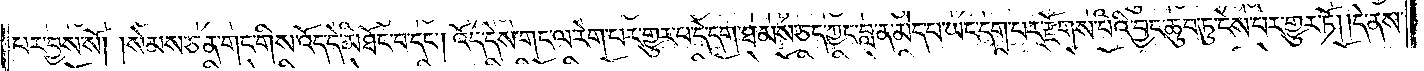པར་བྱས་སོ། །སེམས་ཅན་གང་གིས་འོད་དེ་མཐོང་བ་དང༌། འོད་དེས་གང་ལ་རེག་པར་གྱུར་པ་དེ་དག་ཐམས་ཅད་ཀྱང་བླ་ན་མེད་པ་ཡང་དག་པར་རྫོགས་པའི་བྱང་ཆུབ་ཏུ་ངེས་པར་གྱུར་ཏོ། །དེ་ནས་
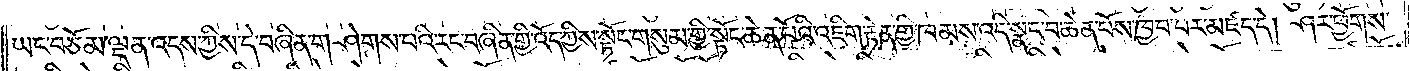ཡང་བཅོམ་ལྡན་འདས་ཀྱིས་དེ་བཞིན་གཤེགས་པའི་རང་བཞིན་གྱི་འོད་ཀྱིས་སྟོང་གསུམ་གྱི་སྟོང་ཆེན་པོའི་འཇིག་རྟེན་གྱི་ཁམས་འདི་སྣང་བ་ཆེན་པོས་ཁྱབ་པར་མཛད་དེ། ཤར་ཕྱོགས་
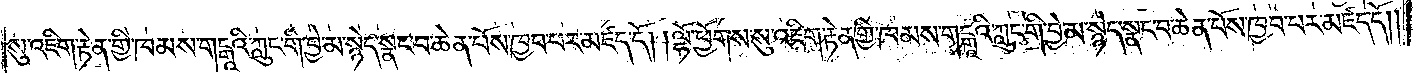སུ་འཇིག་རྟེན་གྱི་ཁམས་གངྒཱའི་ཀླུང་གི་བྱེ་མ་སྙེད་སྣང་བ་ཆེན་པོས་ཁྱབ་པར་མཛད་དོ། །ལྷོ་ཕྱོགས་སུ་འཇིག་རྟེན་གྱི་ཁམས་གངྒཱའི་ཀླུང་གི་བྱེ་མ་སྙེད་སྣང་བ་ཆེན་པོས་ཁྱབ་པར་མཛད་དོ། །
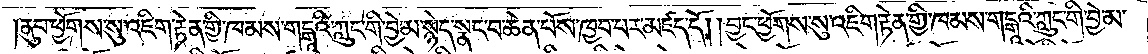ནུབ་ཕྱོགས་སུ་འཇིག་རྟེན་གྱི་ཁམས་གངྒཱའི་ཀླུང་གི་བྱེ་མ་སྙེད་སྣང་བ་ཆེན་པོས་ཁྱབ་པར་མཛད་དོ། །བྱང་ཕྱོགས་སུ་འཇིག་རྟེན་གྱི་ཁམས་གངྒཱའི་ཀླུང་གི་བྱེ་མ་
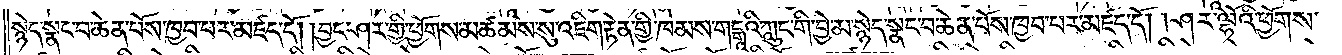སྙེད་སྣང་བ་ཆེན་པོས་ཁྱབ་པར་མཛད་དོ། །བྱང་ཤར་གྱི་ཕྱོགས་མཚམས་སུ་འཇིག་རྟེན་གྱི་ཁམས་གངྒཱའི་ཀླུང་གི་བྱེ་མ་སྙེད་སྣང་བ་ཆེན་པོས་ཁྱབ་པར་མཛད་དོ། །ཤར་ལྷོའི་ཕྱོགས་
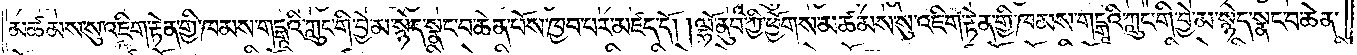མཚམས་སུ་འཇིག་རྟེན་གྱི་ཁམས་གངྒཱའི་ཀླུང་གི་བྱེ་མ་སྙེད་སྣང་བ་ཆེན་པོས་ཁྱབ་པར་མཛད་དོ། །ལྷོ་ནུབ་ཀྱི་ཕྱོགས་མཚམས་སུ་འཇིག་རྟེན་གྱི་ཁམས་གངྒཱའི་ཀླུང་གི་བྱེ་མ་སྙེད་སྣང་བ་ཆེན་
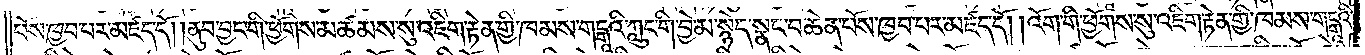པོས་ཁྱབ་པར་མཛད་དོ། །ནུབ་བྱང་གི་ཕྱོགས་མཚམས་སུ་འཇིག་རྟེན་གྱི་ཁམས་གངྒཱའི་ཀླུང་གི་བྱེ་མ་སྙེད་སྣང་བ་ཆེན་པོས་ཁྱབ་པར་མཛད་དོ། །འོག་གི་ཕྱོགས་སུ་འཇིག་རྟེན་གྱི་ཁམས་གངྒཱའི་
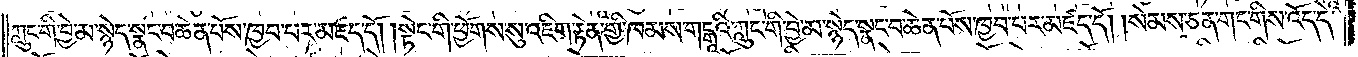ཀླུང་གི་བྱེ་མ་སྙེད་སྣང་བ་ཆེན་པོས་ཁྱབ་པར་མཛད་དོ། །སྟེང་གི་ཕྱོགས་སུ་འཇིག་རྟེན་གྱི་ཁམས་གངྒཱའི་ཀླུང་གི་བྱེ་མ་སྙེད་སྣང་བ་ཆེན་པོས་ཁྱབ་པར་མཛད་དོ། །སེམས་ཅན་གང་གིས་འོད་དེ་
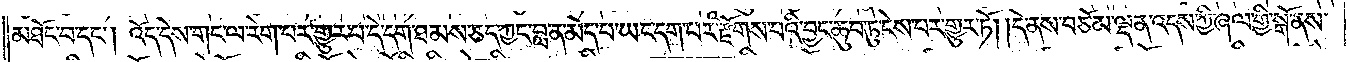མཐོང་བ་དང༌། འོད་དེས་གང་ལ་རེག་པར་གྱུར་པ་དེ་དག་ཐམས་ཅད་ཀྱང་བླ་ན་མེད་པ་ཡང་དག་པར་རྫོགས་པའི་བྱང་ཆུབ་ཏུ་ངེས་པར་གྱུར་ཏོ། །དེ་ནས་བཅོམ་ལྡན་འདས་ཀྱི་ཞལ་གྱི་སྒོ་ནས་
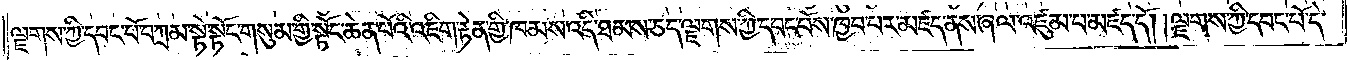ལྗགས་ཀྱི་དབང་པོ་བཀྲམ་སྟེ་སྟོང་གསུམ་གྱི་སྟོང་ཆེན་པོའི་འཇིག་རྟེན་གྱི་ཁམས་འདི་ཐམས་ཅད་ལྗགས་ཀྱི་དབང་པོས་ཁྱབ་པར་མཛད་ནས་ཞལ་འཛུམ་པ་མཛད་དོ། །ལྗགས་ཀྱི་དབང་པོ་དེ་
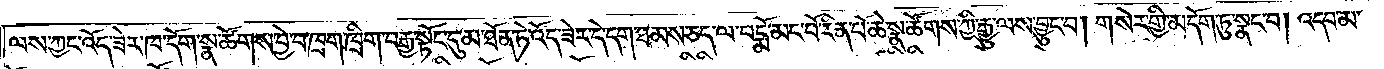ལས་ཀྱང་འོད་ཟེར་ཁ་དོག་སྣ་ཚོགས་བྱེ་བ་ཁྲག་ཁྲིག་བརྒྱ་སྟོང་དུ་མ་ཐོན་ཏེ་འོད་ཟེར་དེ་དག་ཐམས་ཅད་ལ་པདྨོ་མང་པོ་རིན་པོ་ཆེ་སྣ་ཚོགས་ཀྱི་རྒྱུ་ལས་བྱུང་བ། གསེར་གྱི་མདོག་ཏུ་སྣང་བ། འདབ་མ་
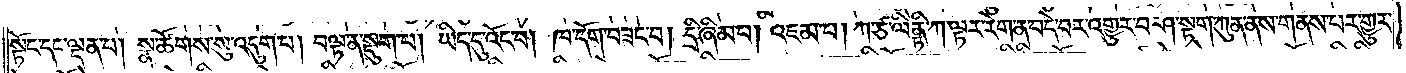སྟོང་དང་ལྡན་པ། སྣ་ཚོགས་སུ་འདུག་པ། བལྟ་ན་སྡུག་པ། ཡིད་དུ་འོང་བ། ཁ་དོག་བཟང་བ། དྲི་ཞིམ་པ། འཇམ་པ། ཀ་ཙ་ལིནྟི་ཀ་ལྟར་རེག་ན་བདེ་བར་འགྱུར་བ་ཤ་སྟག་ཀུན་ནས་གནས་པར་གྱུར་
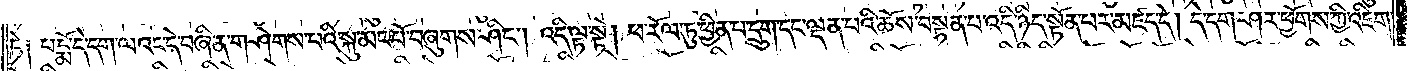ཏེ༑ པདྨོ་དེ་དག་ལའང་དེ་བཞིན་གཤེགས་པའི་སྐུ་མང་པོ་བཞུགས་ཤིང༌། འདི་ལྟ་སྟེ། ཕ་རོལ་ཏུ་ཕྱིན་པ་དྲུག་དང་ལྡན་པའི་ཆོས་བསྟན་པ་འདི་ཉིད་སྟོན་པར་མཛད་དེ། དེ་དག་ཤར་ཕྱོགས་ཀྱི་འཇིག་
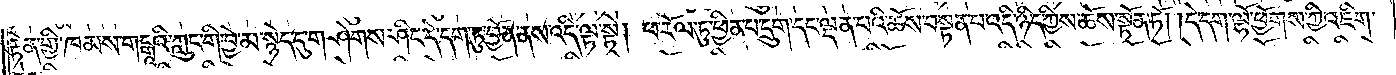རྟེན་གྱི་ཁམས་གངྒཱའི་ཀླུང་གི་བྱེ་མ་སྙེད་དུ་གཤེགས་ཤིང་དེ་དག་ཏུ་བྱོན་ནས་འདི་ལྟ་སྟེ། ཕ་རོལ་ཏུ་ཕྱིན་པ་དྲུག་དང་ལྡན་པའི་ཆོས་བསྟན་པ་འདི་ཉིད་ཀྱིས་ཆོས་སྟོན་ཏོ། །དེ་དག་ལྷོ་ཕྱོགས་ཀྱི་འཇིག་
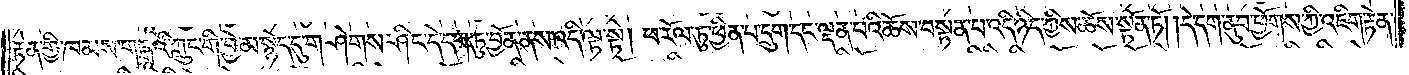རྟེན་གྱི་ཁམས་གངྒཱའི་ཀླུང་གི་བྱེ་མ་སྙེད་དུ་གཤེགས་ཤིང་དེ་དག་ཏུ་བྱོན་ནས་འདི་ལྟ་སྟེ། ཕ་རོལ་ཏུ་ཕྱིན་པ་དྲུག་དང་ལྡན་པའི་ཆོས་བསྟན་པ་འདི་ཉིད་ཀྱིས་ཆོས་སྟོན་ཏོ། །དེ་དག་ནུབ་ཕྱོགས་ཀྱི་འཇིག་རྟེན་
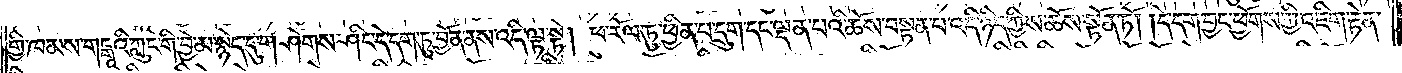གྱི་ཁམས་གངྒཱའི་ཀླུང་གི་བྱེ་མ་སྙེད་དུ་གཤེགས་ཤིང་དེ་དག་ཏུ་བྱོན་ནས་འདི་ལྟ་སྟེ། ཕ་རོལ་ཏུ་ཕྱིན་པ་དྲུག་དང་ལྡན་པའི་ཆོས་བསྟན་པ་འདི་ཉིད་ཀྱིས་ཆོས་སྟོན་ཏོ། །དེ་དག་བྱང་ཕྱོགས་ཀྱི་འཇིག་རྟེན་
